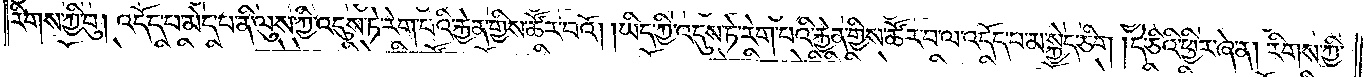རིགས་ཀྱི་བུ། འདོད་པ་མེད་པ་ནི་ལུས་ཀྱི་འདུས་ཏེ་རེག་པའི་རྐྱེན་གྱིས་ཚོར་བའོ། །ཡིད་ཀྱི་འདུས་ཏེ་རེག་པའི་རྐྱེན་གྱིས་ཚོར་བ་ལ་འདོད་པ་མ་སྐྱེད་ཅིག །དེ་ཅིའི་ཕྱིར་ཞེ་ན། རིགས་ཀྱི་
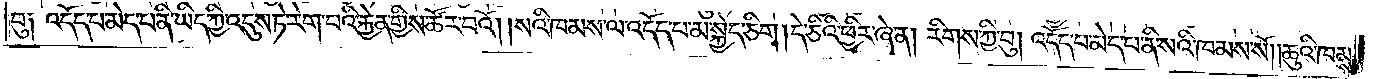བུ། འདོད་པ་མེད་པ་ནི་ཡིད་ཀྱི་འདུས་ཏེ་རེག་པའི་རྐྱེན་གྱིས་ཚོར་བའོ། །སའི་ཁམས་ལ་འདོད་པ་མ་སྐྱེད་ཅིག །དེ་ཅིའི་ཕྱིར་ཞེ་ན། རིགས་ཀྱི་བུ། འདོད་པ་མེད་པ་ནི་སའི་ཁམས་སོ། །ཆུའི་ཁམས་
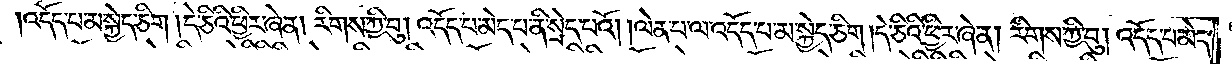འདོད་པ་མ་སྐྱེད་ཅིག །དེ་ཅིའི་ཕྱིར་ཞེ་ན། རིགས་ཀྱི་བུ། འདོད་པ་མེད་པ་ནི་སྲེད་པའོ། །ལེན་པ་ལ་འདོད་པ་མ་སྐྱེད་ཅིག །དེ་ཅིའི་ཕྱིར་ཞེ་ན། རིགས་ཀྱི་བུ། འདོད་པ་མེད་
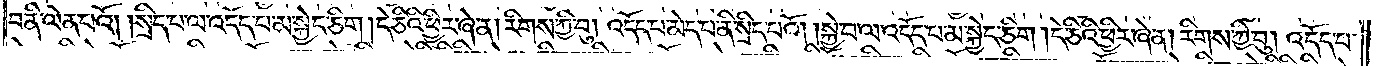པ་ནི་ལེན་པའོ། །སྲིད་པ་ལ་འདོད་པ་མ་སྐྱེད་ཅིག །དེ་ཅིའི་ཕྱིར་ཞེ་ན། རིགས་ཀྱི་བུ། འདོད་པ་མེད་པ་ནི་སྲིད་པའོ། །སྐྱེ་པ་ལ་འདོད་པ་མ་སྐྱེད་ཅིག །དེ་ཅིའི་ཕྱིར་ཞེ་ན། རིགས་ཀྱི་བུ། འདོད་པ་
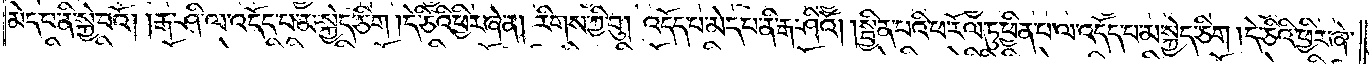མེད་པ་ནི་སྐྱེ་བའོ། །རྒ་ཤི་ལ་འདོད་པ་མ་སྐྱེད་ཅིག །དེ་ཅིའི་ཕྱིར་ཞེ་ན། རིགས་ཀྱི་བུ། འདོད་པ་མེད་པ་ནི་རྒ་ཤིའོ། །སྦྱིན་པའི་ཕ་རོལ་ཏུ་ཕྱིན་པ་ལ་འདོད་པ་མ་སྐྱེད་ཅིག །དེ་ཅིའི་ཕྱིར་ཞེ་
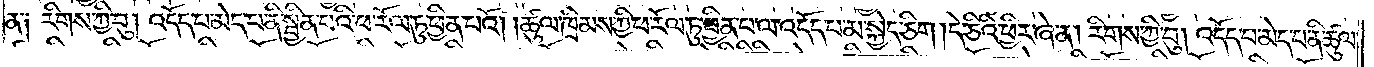ན། རིགས་ཀྱི་བུ། འདོད་པ་མེད་པ་ནི་སྦྱིན་པའི་ཕ་རོལ་ཏུ་ཕྱིན་པའོ། །ཚུལ་ཁྲིམས་ཀྱི་ཕ་རོལ་ཏུ་ཕྱིན་པ་ལ་འདོད་པ་མ་སྐྱེད་ཅིག །དེ་ཅིའི་ཕྱིར་ཞེ་ན། རིགས་ཀྱི་བུ། འདོད་པ་མེད་པ་ནི་ཚུལ་
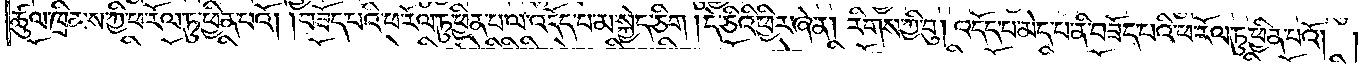ཚུལ་ཁྲིམས་ཀྱི་ཕ་རོལ་ཏུ་ཕྱིན་པའོ། །བཟོད་པའི་ཕ་རོལ་ཏུ་ཕྱིན་པ་ལ་འདོད་པ་མ་སྐྱེད་ཅིག །དེ་ཅིའི་ཕྱིར་ཞེ་ན། རིགས་ཀྱི་བུ། འདོད་པ་མེད་པ་ནི་བཟོད་པའི་ཕ་རོལ་ཏུ་ཕྱིན་པའོ། །
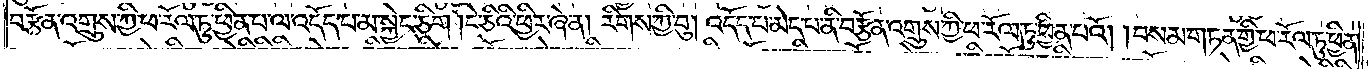བརྩོན་འགྲུས་ཀྱི་ཕ་རོལ་ཏུ་ཕྱིན་པ་ལ་འདོད་པ་མ་སྐྱེད་ཅིག །དེ་ཅིའི་ཕྱིར་ཞེ་ན། རིགས་ཀྱི་བུ། འདོད་པ་མེད་པ་ནི་བརྩོན་འགྲུས་ཀྱི་ཕ་རོལ་ཏུ་ཕྱིན་པའོ། །བསམ་གཏན་ཀྱི་ཕ་རོལ་ཏུ་ཕྱིན་
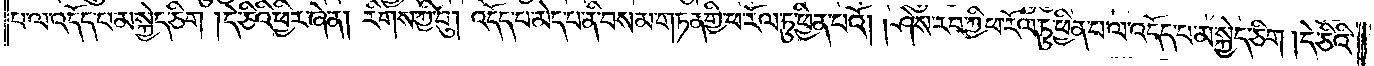པ་ལ་འདོད་པ་མ་སྐྱེད་ཅིག །དེ་ཅིའི་ཕྱིར་ཞེ་ན། རིགས་ཀྱི་བུ། འདོད་པ་མེད་པ་ནི་བསམ་གཏན་གྱི་ཕ་རོལ་ཏུ་ཕྱིན་པའོ། །ཤེས་རབ་ཀྱི་ཕ་རོལ་ཏུ་ཕྱིན་པ་ལ་འདོད་པ་མ་སྐྱེད་ཅིག །དེ་ཅིའི་
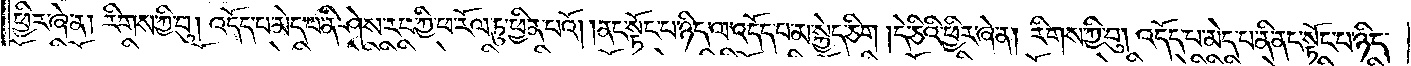ཕྱིར་ཞེ་ན། རིགས་ཀྱི་བུ། འདོད་པ་མེད་པ་ནི་ཤེས་རབ་ཀྱི་ཕ་རོལ་ཏུ་ཕྱིན་པའོ། །ནང་སྟོང་པ་ཉིད་ལ་འདོད་པ་མ་སྐྱེད་ཅིག །དེ་ཅིའི་ཕྱིར་ཞེ་ན། རིགས་ཀྱི་བུ། འདོད་པ་མེད་པ་ནི་ནང་སྟོང་པ་ཉིད་
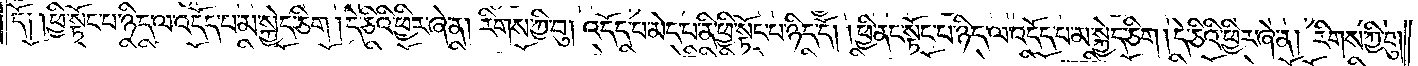དོ། །ཕྱི་སྟོང་པ་ཉིད་ལ་འདོད་པ་མ་སྐྱེད་ཅིག །དེ་ཅིའི་ཕྱིར་ཞེ་ན། རིགས་ཀྱི་བུ། འདོད་པ་མེད་པ་ནི་ཕྱི་སྟོང་པ་ཉིད་དོ། །ཕྱི་ནང་སྟོང་པ་ཉིད་ལ་འདོད་པ་མ་སྐྱེད་ཅིག །དེ་ཅིའི་ཕྱིར་ཞེ་ན། རིགས་ཀྱི་བུ།
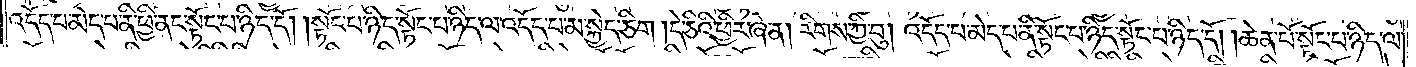འདོད་པ་མེད་པ་ནི་ཕྱི་ནང་སྟོང་པ་ཉིད་དོ། །སྟོང་པ་ཉིད་སྟོང་པ་ཉིད་ལ་འདོད་པ་མ་སྐྱེད་ཅིག །དེ་ཅིའི་ཕྱིར་ཞེ་ན། རིགས་ཀྱི་བུ། འདོད་པ་མེད་པ་ནི་སྟོང་པ་ཉིད་སྟོང་པ་ཉིད་དོ། །ཆེན་པོ་སྟོང་པ་ཉིད་ལ་
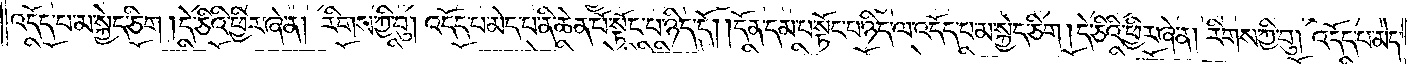འདོད་པ་མ་སྐྱེད་ཅིག །དེ་ཅིའི་ཕྱིར་ཞེ་ན། རིགས་ཀྱི་བུ། འདོད་པ་མེད་པ་ནི་ཆེན་པོ་སྟོང་པ་ཉིད་དོ། །དོན་དམ་པ་སྟོང་པ་ཉིད་ལ་འདོད་པ་མ་སྐྱེད་ཅིག །དེ་ཅིའི་ཕྱིར་ཞེ་ན། རིགས་ཀྱི་བུ། འདོད་པ་མེད་
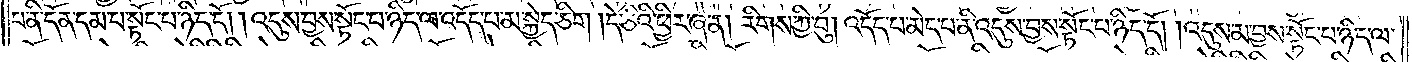པ་ནི་དོན་དམ་པ་སྟོང་པ་ཉིད་དོ། །འདུས་བྱས་སྟོང་པ་ཉིད་ལ་འདོད་པ་མ་སྐྱེད་ཅིག །དེ་ཅིའི་ཕྱིར་ཞེ་ན། རིགས་ཀྱི་བུ། འདོད་པ་མེད་པ་ནི་འདུས་བྱས་སྟོང་པ་ཉིད་དོ། །འདུས་མ་བྱས་སྟོང་པ་ཉིད་ལ་
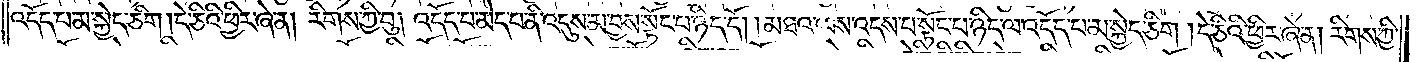འདོད་པ་མ་སྐྱེད་ཅིག །དེ་ཅིའི་ཕྱིར་ཞེ་ན། རིགས་ཀྱི་བུ། འདོད་པ་མེད་པ་ནི་འདུས་མ་བྱས་སྟོང་པ་ཉིད་དོ། །མཐའ་ལས་འདས་པ་སྟོང་པ་ཉིད་ལ་འདོད་པ་མ་སྐྱེད་ཅིག །དེ་ཅིའི་ཕྱིར་ཞེ་ན། རིགས་ཀྱི་
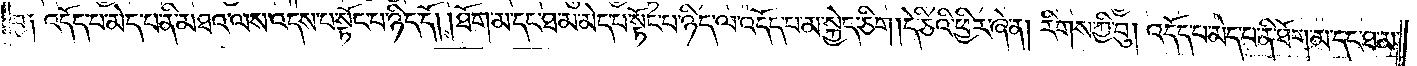བུ། འདོད་པ་མེད་པ་ནི་མཐའ་ལས་འདས་པ་སྟོང་པ་ཉིད་དོ། །ཐོག་མ་དང་ཐ་མ་མེད་པ་སྟོང་པ་ཉིད་ལ་འདོད་པ་མ་སྐྱེད་ཅིག །དེ་ཅིའི་ཕྱིར་ཞེ་ན། རིགས་ཀྱི་བུ། འདོད་པ་མེད་པ་ནི་ཐོག་མ་དང་ཐ་མ་
